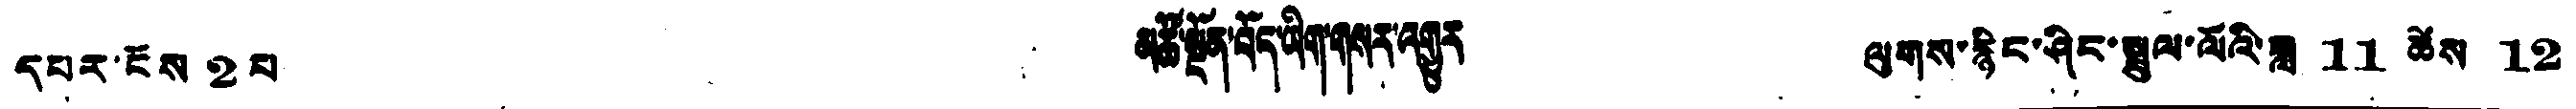དཔར་ངོས 2 པ མཚོ་སྔོན་བོད་ཡིག་གསར་འགྱུར ལུགས་རྙིང་ཤིང་སྦྲུལ་ལོའི་ཟླ 11 ཚེས 12
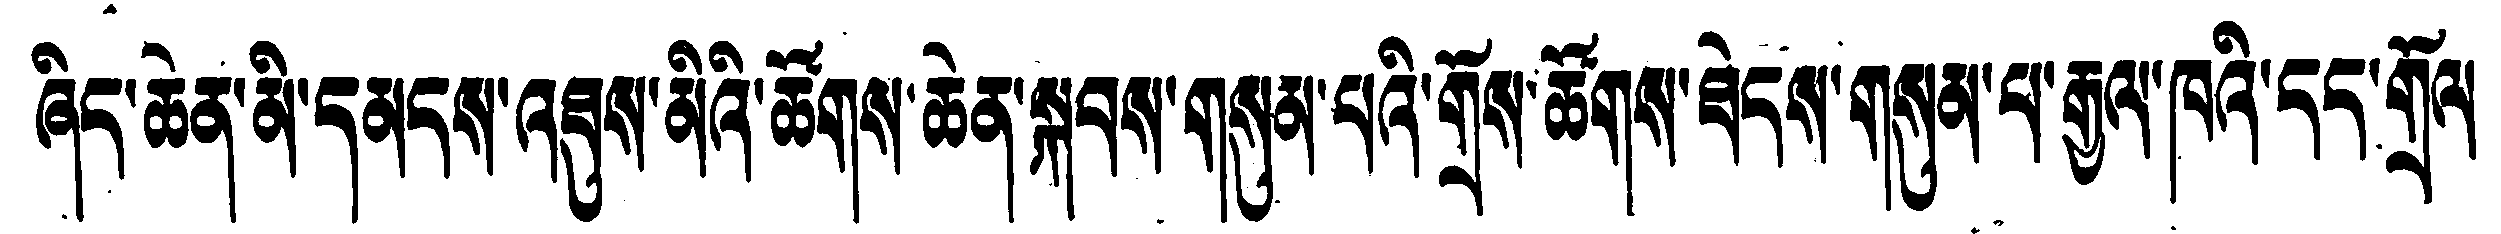ཞིང་ཆེན་མི་དམངས་འཐུས་མིའི་ཚོགས་ཆེན་སྐབས་གསུམ་པའི་གྲོས་ཚོགས་ཐེངས་གསུམ་པ་རྒྱལ་ཁའི་ངང་གྲོལ
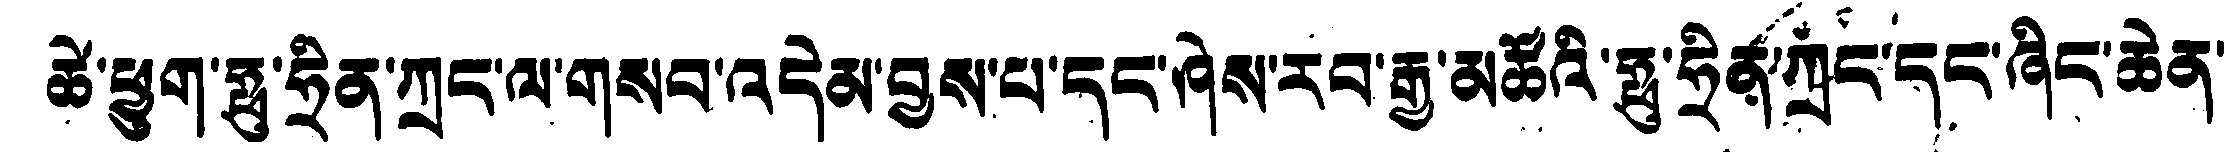ཚེ་ཕྱུག་ཧྥུ་ཧྲིན་ཀྲང་ལ་གསབ་འདེམ་བྱས་པ་དང་ཞེས་རབ་རྒྱ་མཚོའི་ཧྥུ་ཧྲིན་ཀྲང་དང་ཞིང་ཆེན་
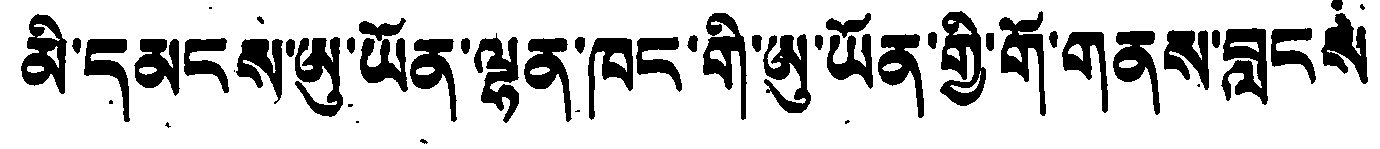མི་དམངས་ཨུ་ཡོན་ལྷན་ཁང་གི་ཨུ་ཡོན་གྱི་གོ་གནས་བླངས
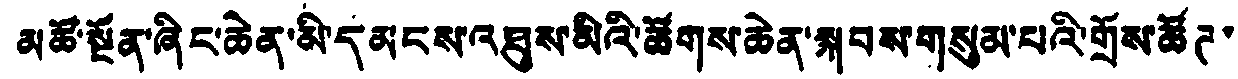མཚོ་སྔོན་ཞིང་ཆེན་མི་དམངས་འཐུས་མིའི་ཚོགས་ཆེན་སྐབས་གསུམ་པའི་གྲོས་ཚོཊ་
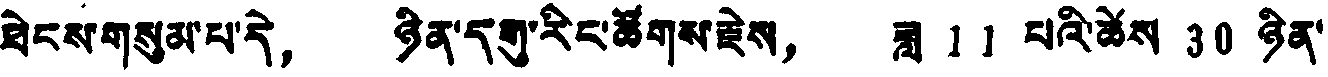ཐེངས་གསུམ་པ་དེ， ཉིན་དགུ་རིང་ཚོགས་རྗེས， ཟླ 11 པའི་ཚེས 30 ཉིན་
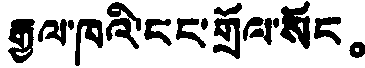རྒྱལ་ཁའི་ངང་གྲོལ་སོང。
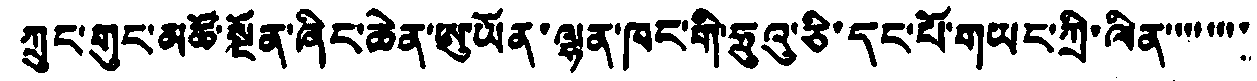ཀྲུང་གུང་མཚོ་སྔོན་ཞིང་ཆེན་ཨུ་ཡོན་ལྷན་ཁང་གི་ཧྲུའུ་ཅི་དང་པོ་གཡང་ཀྲི་ལིན་་་་་་་་
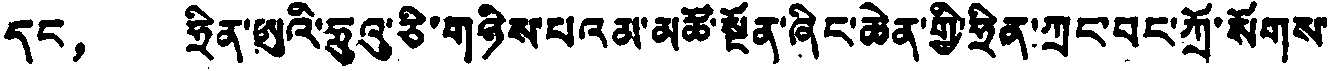དང， ཧྲིན་ཨུའི་ཧྲུའུ་ཅི་གཉིས་པའམ་མཚོ་སྔོན་ཞིང་ཆེན་གྱི་ཧྲིན་ཀྲང་བང་ཀྲོ་སོགས་
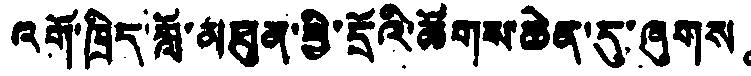འགོ་ཁྲིད་བློ་མཐུན་ཕྱི་དྲོའི་ཚོགས་ཆེན་རུ་ཞུགས。
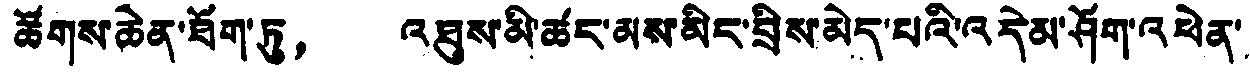ཚོགས་ཆེན་ཐོག་ཏུ， འཐུས་མི་ཚང་མས་མིང་བྲིས་མེད་པའི་འདེམ་ཤོག་འཕེན་
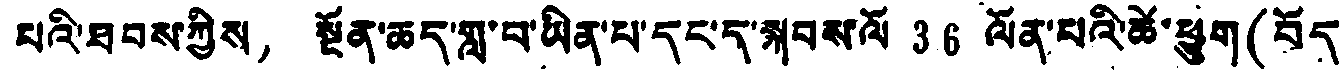པའི་ཐབས་ཀྱིས， སྔོན་ཆད་གླ་བ་ཡིན་པ་དང་ད་སྐབས་ལོ 36 ལོན་པའི་ཚེ་ཕྱུག （བོད
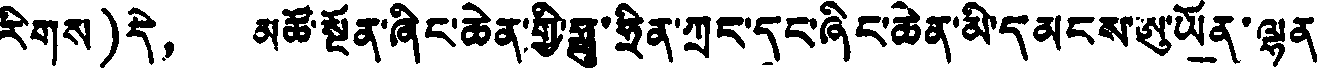རིགས）དེ， མཚོ་སྔོན་ཞིང་ཆེན་གྱི་ཧྥུ་ཧྲིན་ཀྲང་དང་ཞིང་ཆེན་མི་དམངས་ཨུ་ཡོན་ལྷན
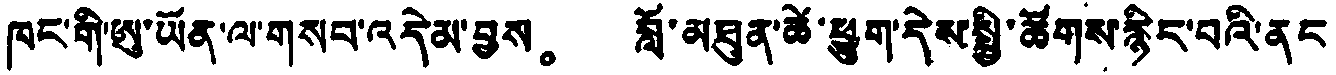ཁང་གི་ཨུ་ཡོན་ལ་གསབ་འདེམ་བྱས。 བློ་མཐུན་ཚེ་ཕྱུག་དེས་སྤྱི་ཚོགས་རྙིང་བའི་ནང
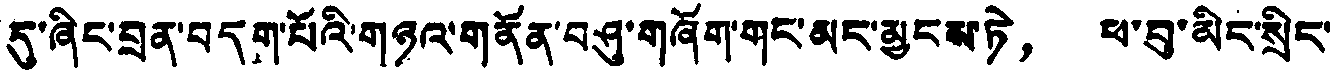དུ་ཞིང་བྲན་བདག་པོའི་གཉའ་གནོན་བཤུ་གཞོག་གང་མང་མྱངས་ཏེ， ཕ་བུ་མིང་སྲིང་
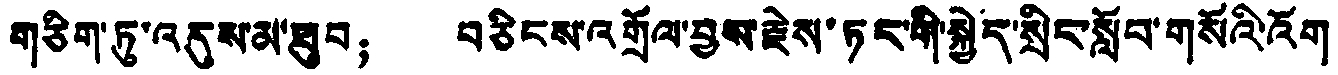གཅིག་ཏུ་འདུས་མ་ཐུབ； བཅིངས་འགྲོལ་བྱས་རྗེས་ཏང་གི་སྐྱེད་སྲིང་སློབ་གསོའི་འོག
